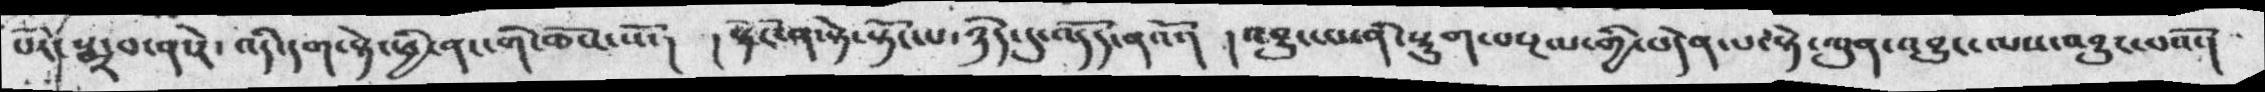པར་ སྨྲ་བ་ན་རེ་ འདི་དག་སྟེ་ཕྱི་ངན་གི་ཆོས་སོ་།  ། སྟོངོ་ཤ་སྟེ་སྟོང་པ་ཉིད་དུ་འདོད་ནའོ་།  ། འབྱུང་བ་ནི་སྡུག་བསྔལ་གྱི་བདེན་པ་སྟེ་ཀུན་འབྱུང་ལས་འབྱུང་པའོ་།
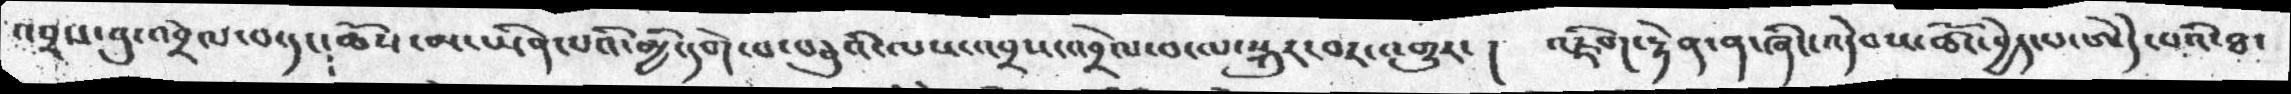འབྲས་བུ་འབྲེལ་བ་དང༴ཆོས་མ་ཡིན་པའི་མྱི་དགེ་བ་བཅུའི་ལས་འབྲས་འབྲེལ་བ་ལ་སྐུར་བར་འགྱུར་ ། འཇིག་རྟེན་ན་ཞིང་འདེབས་ཚོང་བྱེད་པ་ཨེདེ་པའི་ཐ་
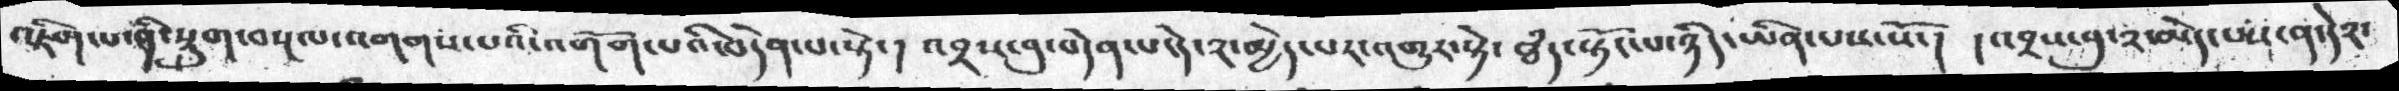འཇིག་པ་ནི་སྡུག་བསྔལ་འགགས་པའི་འགོག་པའི་བདེན་པ་སྟེ་།  འབྲས་བུ་བདེན་པ་དེ་༢་མྱེད་པར་འགྱུར་སྟེ་ ཐདཾ་སྟོང་པ་ཉིད་ཡིན་པས་སོ་།   ། འབྲས་བུ་༢་མེད་པས་ན་དེ༢་
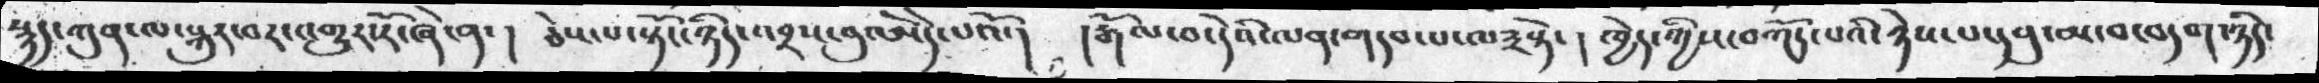སྙད་ཀུན་ལ་སྐུར་བར་འགྱུར་རོ་ཞེ་ན་།  ཅེས་པ་སྟོང་ཉིད་འབྲས་བུ་ཨེདེ་པའོ་།   །རྒོལ་བ་དེའི་ལན་གདབ་པ་ལ༣སྟེ་ ། ཁྱེད་ཀྱིས་བཀོད་པའི་ཉེས་པ་དབུ་མ་བ་བདག་ཉིད་
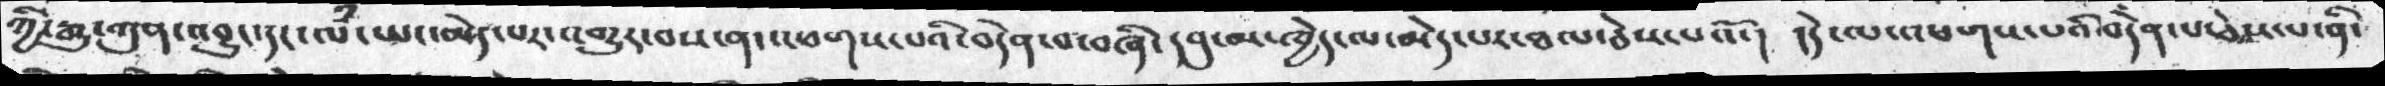ཀྱི་རྒྱུ་ཀུན་འབྱུང་དང་ལཾ་ཡང་མེད་པར་འགྱུར་བས་ན་འཕགས་པའི་བདེན་པ་བཞི་དབུ་མ་ཁྱེད་ལ་མེད་པར་ཐལ་ཅེས་པའོ་།   །དེ་ལ་འཕགས་པའི་བདེན་པ་ཅེས་པ་ནི་
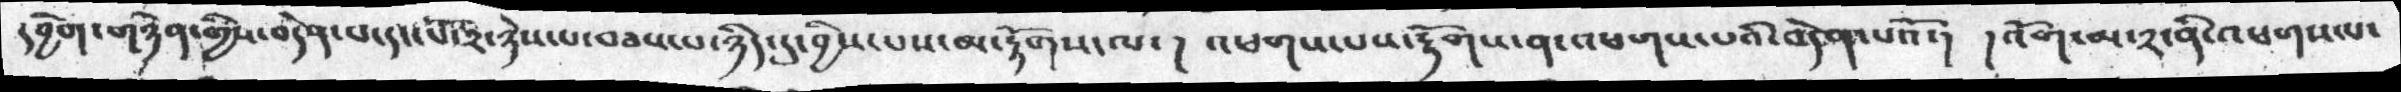དབྱིག་གཉེན་གྱིས་བདེན་པ་དང་པོ་༢་ཉེས་པ་བཅས་པ་ཉིད་དུ་བྱེས་པས་མ་རྟོགས་ལ་།  འཕགས་པས་རྟོགས་ན་འཕགས་པའི་བདེན་པའོ་།  །འོག་མ་༢་ནི་འཕགས་པ་
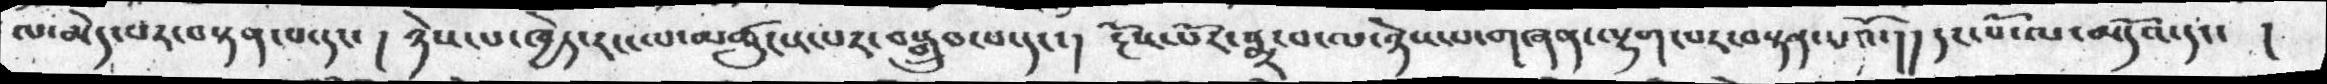ལ་མེད་པར་བསྟན་པ་དང་ ། ཉེས་པ་ཁྱེད་རང་ལ་མཚུངས་པར་བསྒྲུབ་པ་དང་།  རྔོས་པོར་སྨྲ་བ་ལ་ཉེས་པ་གཞན་ལྷག་པར་བསྟན་པའོ་།།  དང་པོ་ལ་མདོའ་དང་ །
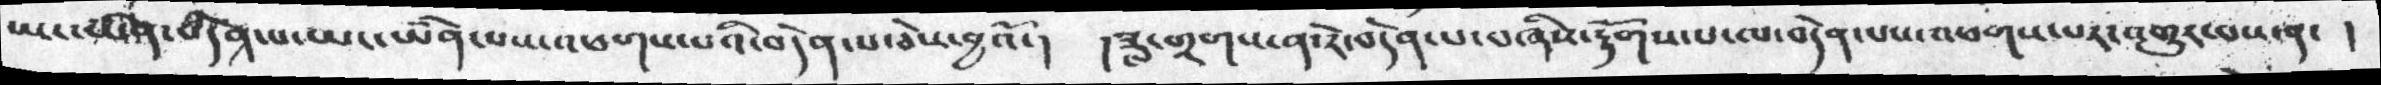ཡང་ཡིན་བདེན་པ་ཡང་ཡིན་པས་འཕགས་པའི་བདེན་པ་ཅེས་བྱའོ་།    །ཟླ་གྲགས་ན་རེ་བདེན་པ་བཞིས་རྟོགས་པ་ལ་བདེན་པས་འཕགས་པར་འགྱུར་བས་ན་ །
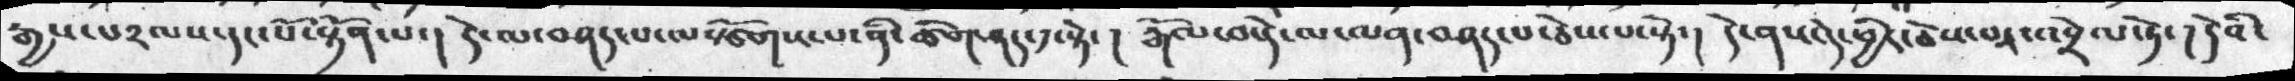རྒྱས་པ༢ལས་དང་པོ་སྟོན་པ་།  དེ་ལ་བཤད་པ་ལསྩོགས་པ་ནི་ཚིག་ཤད་༡་སྟེ་ ། རྒོལ་བ་དེ་ལ་ལན་བཤད་པ་ཅེས་པ་སྟེ་།  དེ་ནས་དེ་ཕྱིར་ཅེས་པར་འབྲེལ་ཏེ་། དེའི་
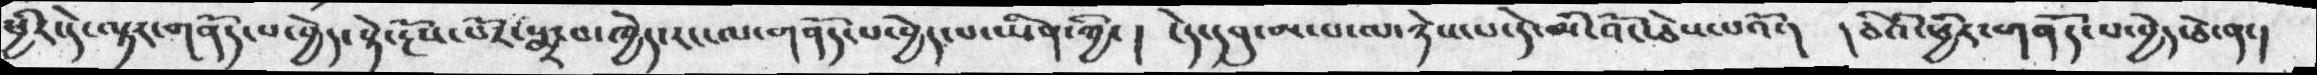ཕྱིར་དེ་ལྟར་གནོད་པ་བྱེད་སྟེ་རྔོས་པོར་སྨྲ་བ་ཁྱེད་རང་ལ་གནོད་པ་བྱེད་པ་ཡིན་ཀྱི་།  ངེད་དབུ་མ་པ་ལ་ཉེས་པ་དེ་མིའོ་ཅེས་པའོ་།  ། ཅེའི་ཕྱིར་གནོད་པ་བྱེད་ཅེ་ན་།
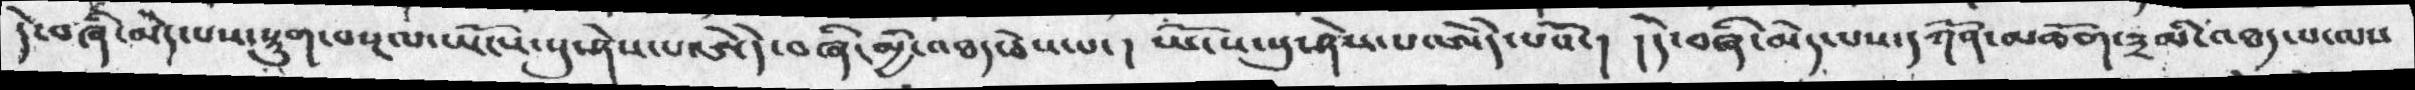དེ་བཞི་མེད་པས་སྡུག་བསྔལ་སྤོངས་སུ་ཤེས་པ་ཨེདེ་བཞི་མྱི་འཐད་ཅེས་པ་།  ཡོངས་སུ་ཤེས་པ་ཨེདེ་པའོ་།  །དེ་བཞི་མེད་པས་དཀོན་མཆོག་༣་མི་འཐད་པ་ལས
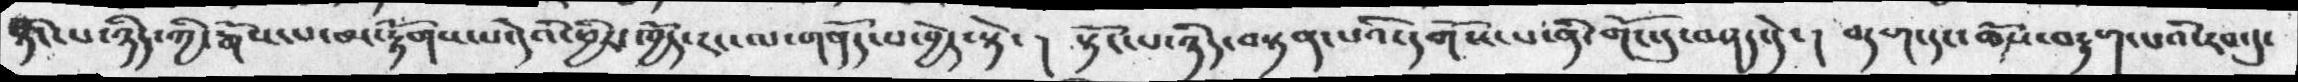སྟོང་པ་ཉིད་ཀྱི་རྒོས་པ་མ་རྟོགས་པ་དེའི་ཕྱིར་ཁྱོད་རང་ལ་གནོད་པ་བྱེད་སྟེ་། སྟོང་པ་ཉིད་བསྟན་པའི་དགོས་པ་ནི་གོང་དུ་བཤད་དེ་།  བདག་དང་ཆོས་བརྟག་པའི་རབ་དུ་
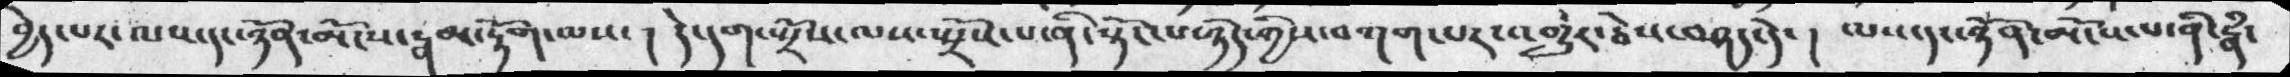བྱེད་པར་ལས་དང་ཉོན་མོངས་རྣམ་རྟོག་ལས་ །  དེ་དག་སྤྲོས་ལས་སྤྲོས་པ་ནི་སྟོང་པ་ཉིད་ཀྱིསབགག་པར་འགྱུར་ཅེས་བཤད་དེ་།     ལས་དང་ཉོན་མོངས་པ་ནི་རྣཾ
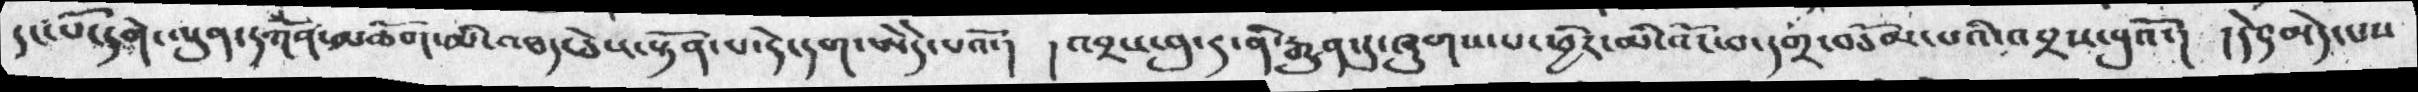དང་པོ་དགེ་ལུན་དཀོན་མཆོག་མི་འཐད་ཅེས་སྟོན་པ་དེ་དག་ཨེདེ་པའོ་།  ། འབྲས་བུ་ར་ནི་རྒྱུན་དུ་ཞུགས་པ་ཕྱིར་མི་འོང་བ་དགྲ་བཅོམ་པའི་འབྲས་བུའོ་།  དེ༩མེད་པས་
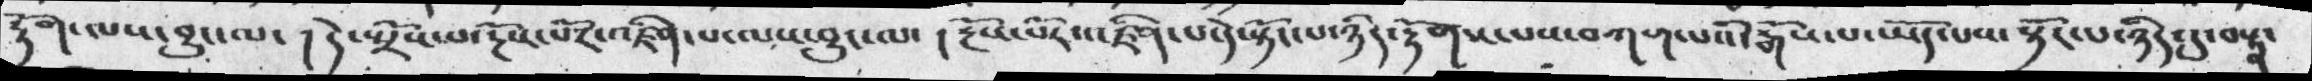རྟོག་ལས་བྱུང་ལ་ ། དེ་སྤྲོས་པ་རྔོན་པོར་འཛིན་པ་ལས་བྱུང་ལ་ ། རྔོས་པོར་འཛིན་པ་དེ་སྟོང་པ་ཉིད་རྟོགས་པས་བཀག་པའི་རྒོས་པ་ཡོད་པས་ སྟོང་པ་ཉིད་དུ་བསྟན་
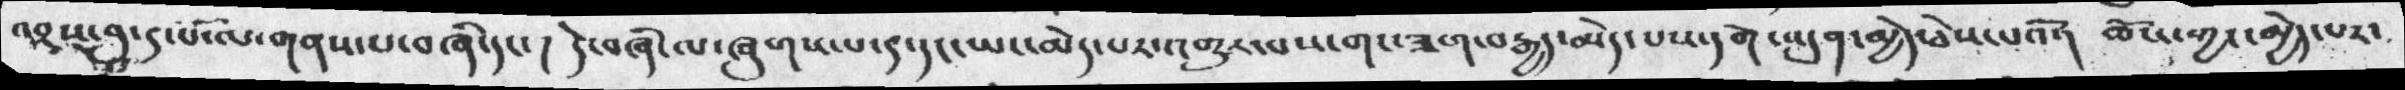འབྲས་བུ་༩་པོ་ལ་གནས་པ་བཞི་དང་།  དེ་བཞི་ལ་ཞུགས་པ་༩་དང་ཡང་མེད་པར་འགྱུར་པས་གང་ཟག་བརྒྱད་མེད་པས་དགེ་འདུན་མྱེད་ཅེས་པའོ་།  ཆོས་གྱང་མྱེད་པར་
